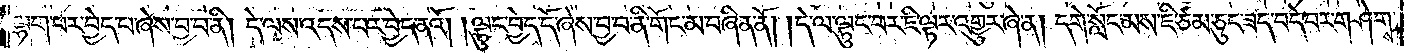ལྷག་པར་བྱེད་པ་ཞེས་བྱ་བ་ནི། དེ་ལས་འདས་པར་བྱེད་ནའོ། །ལྟུང་བྱེད་དོ་ཞེས་བྱ་བ་ནི་གོང་མ་བཞིན་ནོ། །དེ་ལ་ལྟུང་བར་ཇི་ལྟར་འགྱུར་ཞེ་ན། དགེ་སློང་མས་ཇི་ཙམ་དུ་ཟད་བདེ་བར་གཤེགས།
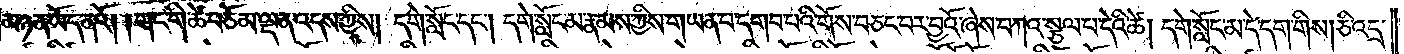མཉན་ཡོད་ནའོ། །གང་གི་ཚེ་བཅོམ་ལྡན་འདས་ཀྱིས། དགེ་སློང་དང༌། དགེ་སློང་མ་རྣམས་ཀྱིས་གཡན་པ་དགབ་པའི་གོས་བཅང་བར་བྱའོ་ཞེས་བཀའ་སྩལ་པ་དེའི་ཚེ། དགེ་སློང་མ་དེ་དག་གིས། ཅི་འདྲ་
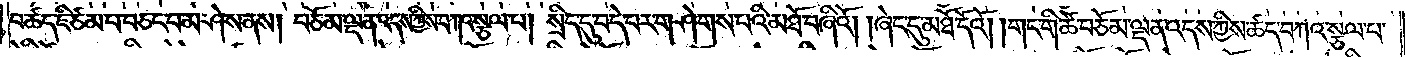བ་ཚད་ཇི་ཙམ་པ་བཅང་བ་མ་ཤེས་ནས། བཅོམ་ལྡན་འདས་ཀྱིས་བཀའ་སྩལ་པ་།སྲིད་དུ་བདེ་བར་གཤེགས་པའི་མཐོ་བཞིའོ། །ཞེང་དུ་མཐོ་དོའོ། །གང་གི་ཚེ་བཅོམ་ལྡན་འདས་ཀྱིས་ཚད་བཀའ་སྩལ་པ་
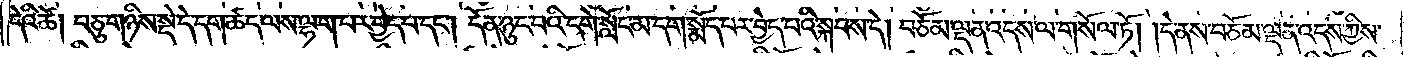དེའི་ཚེ། བཅུ་གཉིས་སྡེ་དེ་དག་ཚད་ལས་ལྷག་པར་བྱེད་པ་དང༌། དོན་ཉུང་བའི་དགེ་སློང་མ་དག་སྨོད་པར་བྱེད་པའི་སྐབས་དེ། བཅོམ་ལྡན་འདས་ལ་གསོལ་ཏོ། །དེ་ནས་བཅོམ་ལྡན་འདས་ཀྱིས་
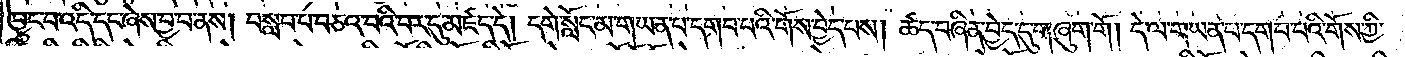བྱུང་བ་འདི་དང་ཞེས་བྱ་བ་ནས། བསླབ་པ་བཅའ་བའི་བར་དུ་མཛད་དེ། དགེ་སློང་མ་གཡན་པ་དགབ་པའི་གོས་བྱེད་པས། ཚད་བཞིན་བྱེད་དུ་གཞུག་གོ། །དེ་ལ་གཡན་པ་དགབ་པའི་གོས་ཀྱི་
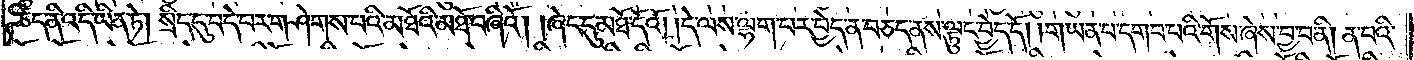ཚད་ནི་འདི་ཡིན་ཏེ། སྲིད་དུ་བདེ་བར་གཤེགས་པའི་མཐོའི་མཐོ་བཞིའོ། །ཞེང་དུ་མཐོ་དོའོ། །དེ་ལས་ལྷག་པར་བྱེད་ན་བཅད་ནས་ལྟུང་བྱེད་དོ། །གཡན་པ་དགབ་པའི་གོས་ཞེས་བྱ་བ་ནི། ན་བའི་
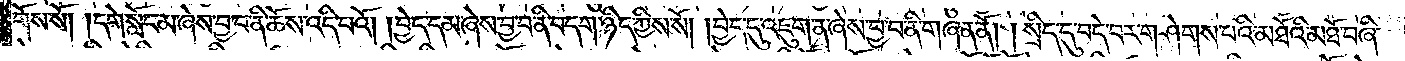གོས་སོ། །དགེ་སློང་མ་ཞེས་བྱ་བ་ནི་ཆོས་འདི་པའོ། །བྱེད་དམ་ཞེས་བྱ་བ་ནི་བདག་ཉིད་ཀྱིས་སོ། །བྱེད་དུ་འཇུག་ན་ཞེས་བྱ་བ་ནི་གཞན་ནོ། །སྲིད་དུ་བདེ་བར་གཤེགས་པའི་མཐོའི་མཐོ་བཞི་
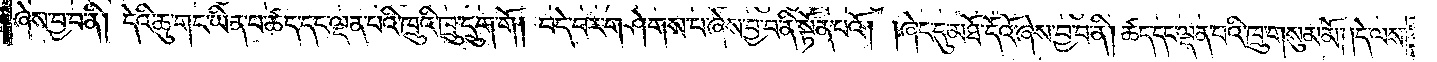ཞེས་བྱ་བ་ནི། དེའི་ཆུ་གང་ཡིན་པ་ཚད་དང་ལྡན་པའི་ཁྲུའི་ཁྲུ་དྲུག་གོ། བདེ་བར་གཤེགས་པ་ཞེས་བྱ་བ་ནི་སྟོན་པའོ། །ཞེང་དུ་མཐོ་དོའོ་ཞེས་བྱ་བ་ནི། ཚད་དང་ལྡན་པའི་ཁྲུ་གསུམ་མོ། །དེ་ལས་
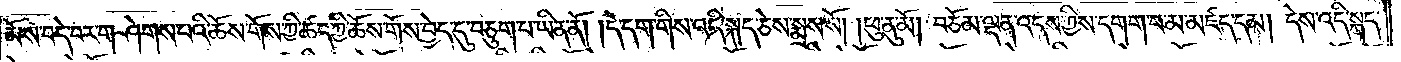མོས་བདེ་བར་གཤེགས་པའི་ཆོས་གོས་ཀྱི་ཚད་ཀྱི་ཆོས་གོས་བྱེད་དུ་བཅུག་པ་ཡིན་ནོ། །དེ་དག་གིས་འདི་སྐད་ཅེས་སྨྲས་སོ། །ཕུ་ནུ་མོ། བཅོམ་ལྡན་འདས་ཀྱིས་དགག་པ་མ་མཛད་དམ། དེས་འདི་སྐད་
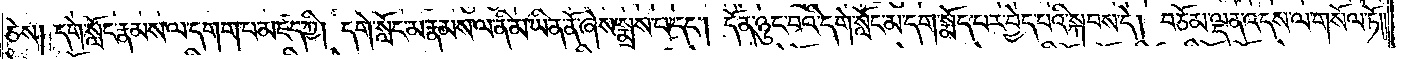ཅེས། དགེ་སློང་རྣམས་ལ་དགག་པ་མཛད་ཀྱི། དགེ་སློང་མ་རྣམས་ལ་ནི་མ་ཡིན་ནོ་ཞེས་སྨྲས་པ་དང༌། དོན་ཉུང་བའི་དགེ་སློང་མ་དག་སྨོད་པར་བྱེད་པའི་སྐབས་དེ། བཅོམ་ལྡན་འདས་ལ་གསོལ་ཏོ༎
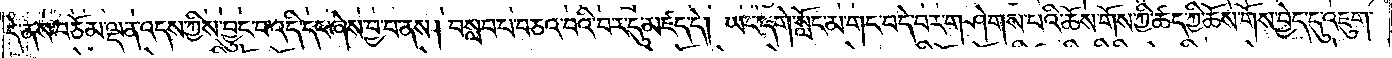དེ་ནས་བཅོམ་ལྡན་འདས་ཀྱིས་བྱུང་བ་འདི་དང་ཞེས་བྱ་བ་ནས། བསླབ་པ་བཅའ་བའི་བར་དུ་མཛད་དེ། ཡང་དགེ་སློང་མ་གང་བདེ་བར་གཤེགས་པའི་ཆོས་གོས་ཀྱི་ཚད་ཀྱི་ཆོས་གོས་བྱེད་དུ་འཇུག་
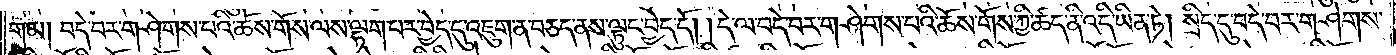གམ། བདེ་བར་གཤེགས་པའི་ཆོས་གོས་ལས་ལྷག་པར་བྱེད་དུ་འཇུག་ན་བཅད་ནས་ལྟུང་བྱེད་དོ། །དེ་ལ་བདེ་བར་གཤེགས་པའི་ཆོས་གོས་ཀྱི་ཚད་ནི་འདི་ཡིན་ཏེ། སྲིད་དུ་བདེ་བར་གཤེགས་
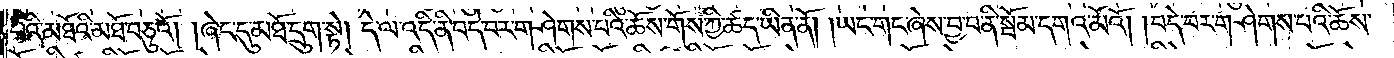པའི་མཐོའི་མཐོ་བཅུའོ། །ཞེང་དུ་མཐོ་དྲུག་སྟེ། དེ་ལ་འདི་ནི་བདེ་བར་གཤེགས་པའི་ཆོས་གོས་ཀྱི་ཚད་ཡིན་ནོ། །ཡང་གང་ཞེས་བྱ་བ་ནི་སྦོམ་དགའ་མོའོ། །བདེ་བར་གཤེགས་པའི་ཆོས་
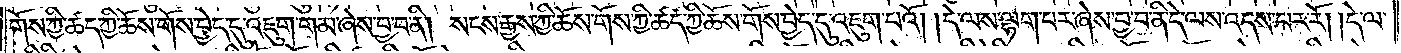གོས་ཀྱི་ཚད་ཀྱི་ཆོས་གོས་བྱེད་དུ་འཇུག་གམ་ཞེས་བྱ་བ་ནི། སངས་རྒྱས་ཀྱི་ཆོས་གོས་ཀྱི་ཚད་ཀྱི་ཆོས་གོས་བྱེད་དུ་འཇུག་པའོ། །དེ་ལས་ལྷག་པར་ཞེས་བྱ་བ་ནི་དེ་ལས་འདས་པར་རོ། །དེ་ལ་
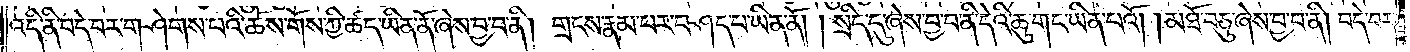འདི་ནི་བདེ་བར་གཤེགས་པའི་ཆོས་གོས་ཀྱི་ཚད་ཡིན་ནོ་ཞེས་བྱ་བ་ནི། གྲངས་རྣམ་པར་བཤད་པ་ཡིན་ནོ། །སྲིད་དུ་ཞེས་བྱ་བ་ནི་དེའི་ཆུ་གང་ཡིན་པའོ། །མཐོ་བཅུ་ཞེས་བྱ་བ་ནི། བདེ་བར་
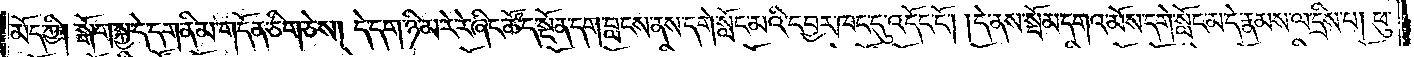མོད་ཀྱི། སྒོག་སྐྱ་དེ་དག་ནི་མ་གདོན་ཅིག་ཅེས། དེ་དག་ཉི་མ་རེ་རེ་ཞིང་ཚོད་སྔོན་དག་བླངས་ནས་དགེ་སློང་མའི་དབྱར་ཁང་དུ་འདོང་ངོ༌། །དེ་ནས་སྡོམ་དགའ་མོས་དགེ་སློང་མ་དེ་རྣམས་ལ་དྲིས་པ། ཕུ་
